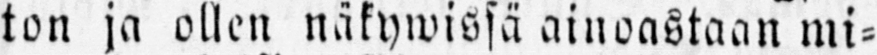ton ja ollen näkywissä ainoastaan mi-
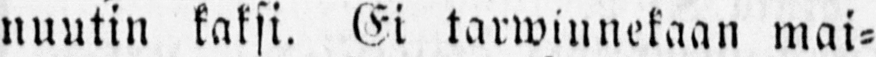nuutin kaksi. Ei tarwinnekaan mai-
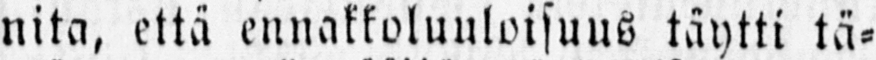nita, että ennakkoluuloisuus täytti tä-
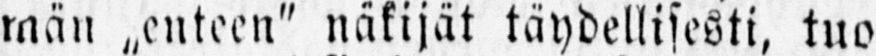män „enteen" näkijät täydellisesti, tuo
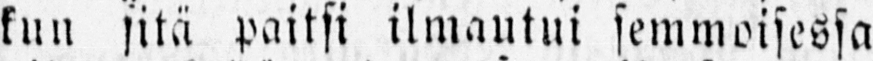kun sitä paitsi ilmautui semmoisessa
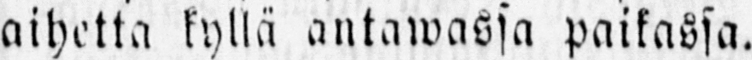aihetta kyllä antawassa paikassa.
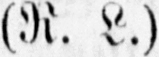(R. L.)
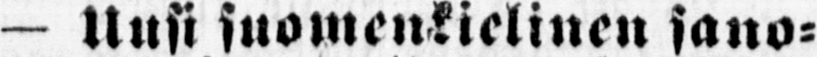— Uusi suomenkielinen sano-
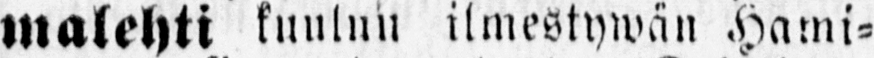malehti kuuluu ilmestywän Hami-
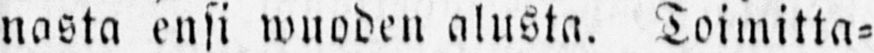nasta ensi wuoden alusta. Toimitta-
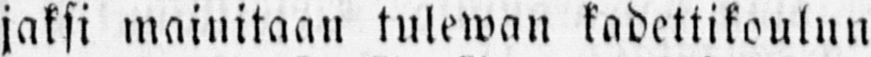jaksi mainitaan tulewan kadettikoulun
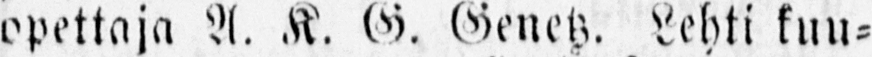opettaja A. K. G. Genetz. Lehti kuu-
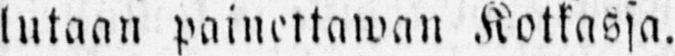lutaan painettawan Kotkassa.
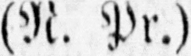(N. Pr.)
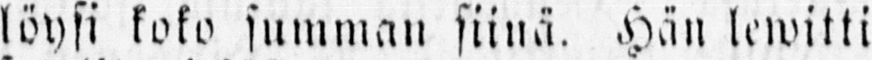löysi koko summan siinä. Hän lewitti
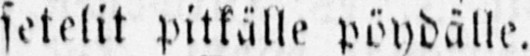setelit pitkälle pöydälle.
